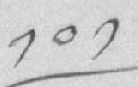༡༠༡
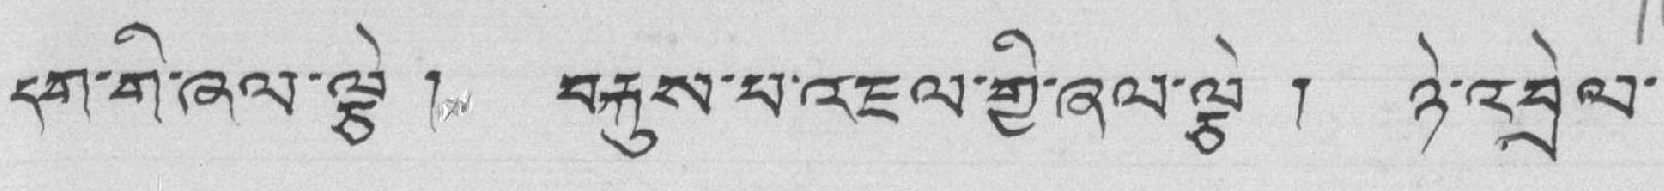དག་གི་ཞལ་ལྕེ ། བརྐུས་པ་འཇལ་གྱི་ཞལ་ལྕེ ། ཉེ་འབྲེལ་
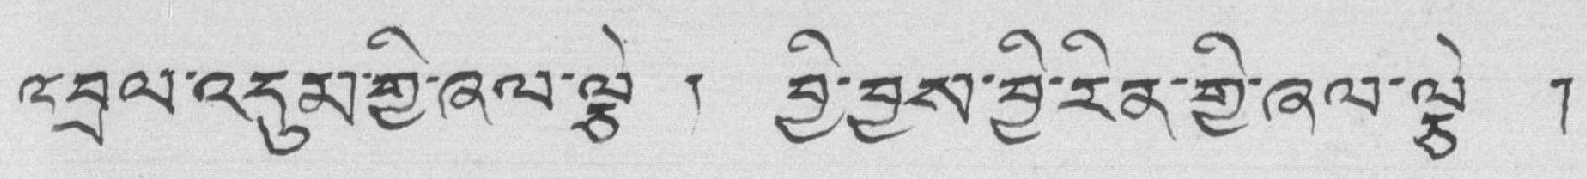འབྲལ་འདུམ་གྱི་ཞལ་ལྕེ ། བྱི་བྱས་བྱི་རིན་གྱི་ཞལ་ལྕེ །
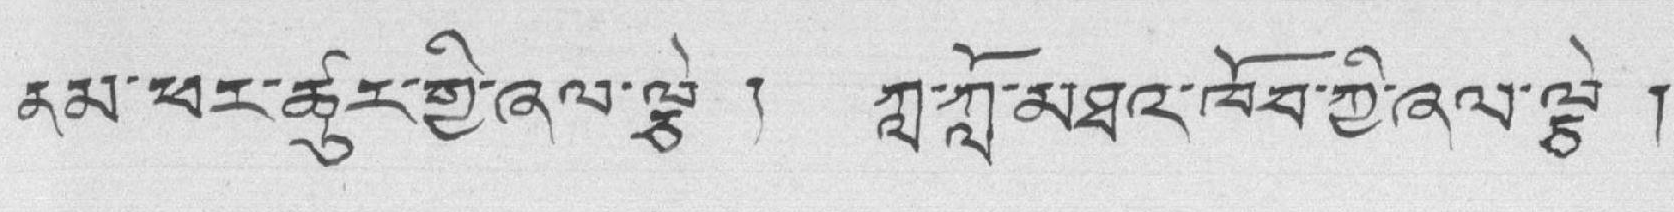ནམ་ཕར་ཚུར་གྱི་ཞལ་ལྕེ ། ཀླ་ཀློ་མཐའ་ཁོབ་ཀྱི་ཞལ་ལྕེ །
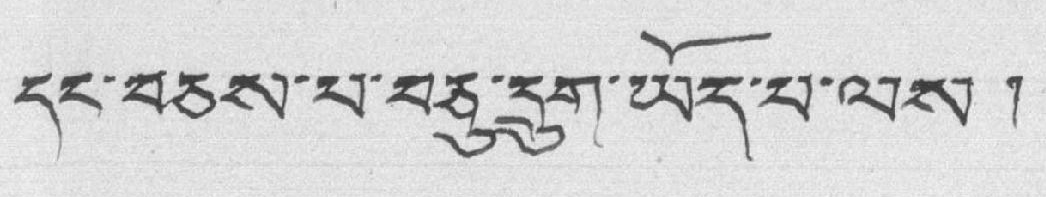དང་བཅས་པ་བཅུ་དྲུག་ཡོད་པ་ལས །
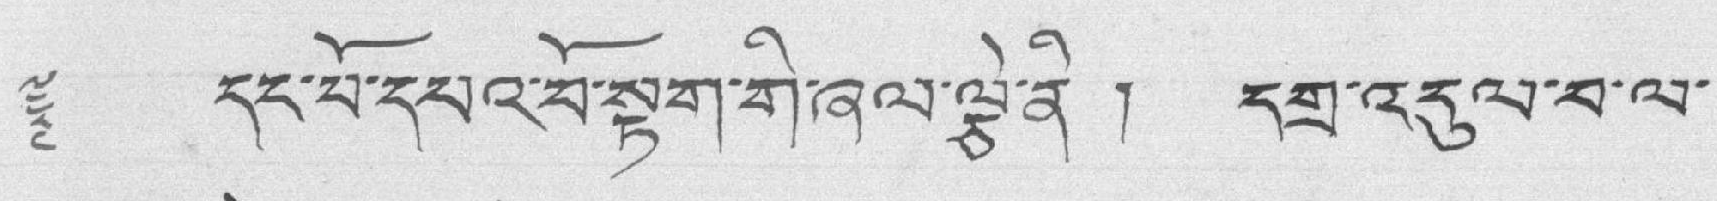༈ དང་བོ་དཔའ་བོ་སྟག་གི་ཞལ་ལྕེ་ནི ། དགྲ་འདུལ་བ་ལ་
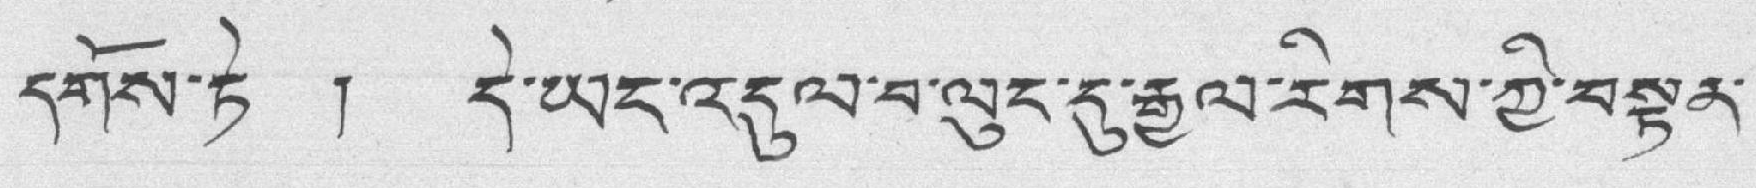དགོས་ཏེ ། དེ་ཡང་འདུལ་བ་ལུང་དུ་རྒྱལ་རིགས་ཀྱི་བསྟན་
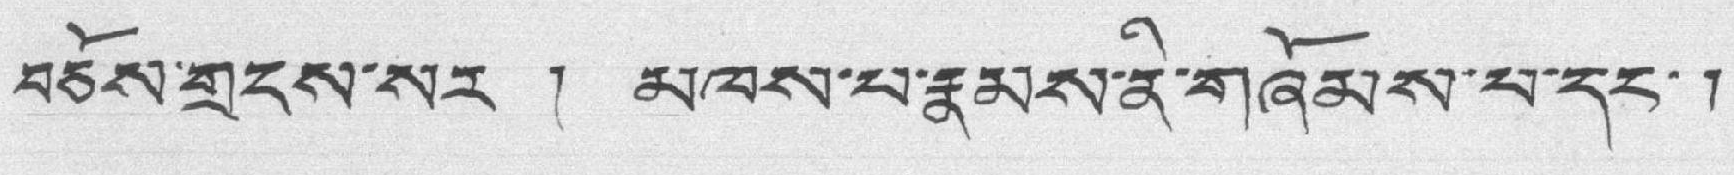བཅོས་གྲངས་སར ། མཁས་པ་རྣམས་ནི་གཞོམས་པ་དང་།
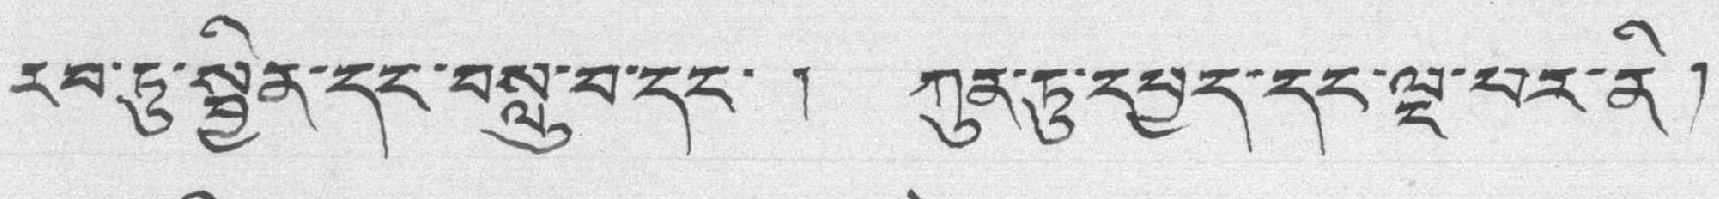རབ་ཏུ་སྦྱིན་དང་བསླུ་བ་དང་ ། ཀུན་ཏུ་དཔྱད་དང་ལྔ་པར་ནི།
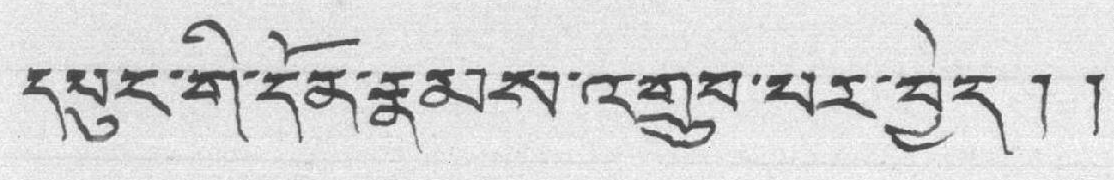དཔུང་གི་དོན་རྣམས་འགྲུབ་པར་བྱེད།།
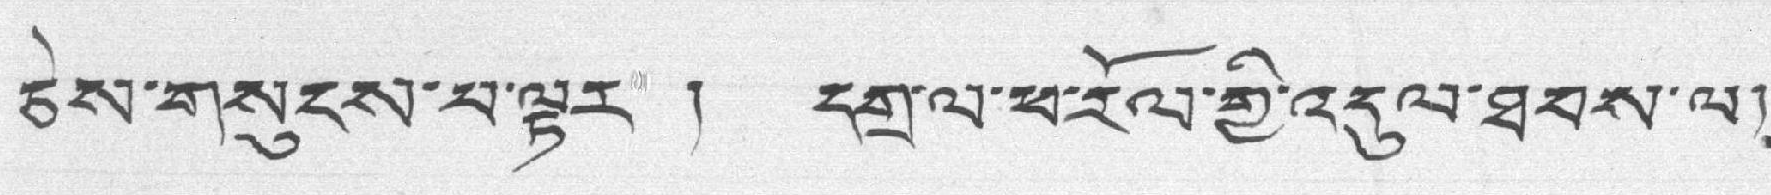ཅེས་གསུངས་པ་ལྟར ། དགྲ་ལ་ཕ་རོལ་གྱི་འདུལ་ཐབས་ལ།
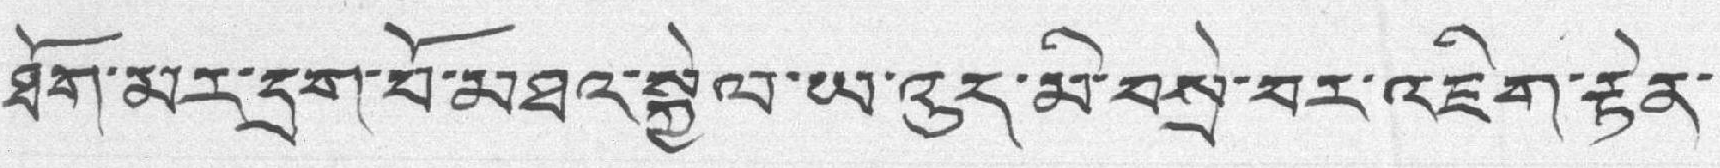ཐོག་མར་དྲག་པོ་མཐའ་སྐྱེལ་ཡ་འུད་མི་བསྲེ་བར་འཇིག་རྟེན་
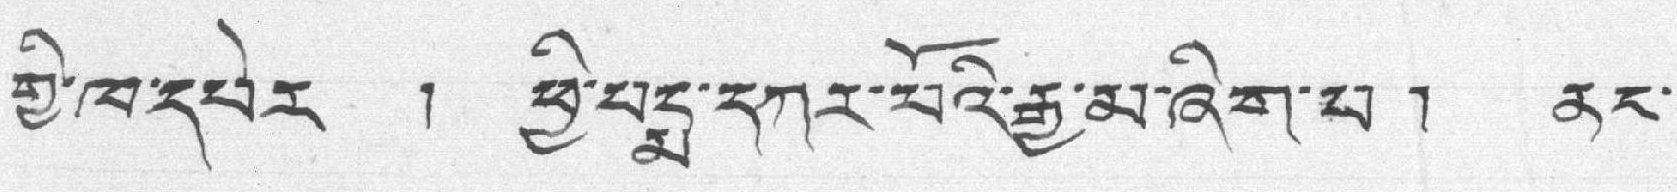གྱི་ཁ་དཔེར ། ཕྱི་པདྨ་དཀར་པོའི་རྒྱ་མ་ཞིག་པ། ནང་
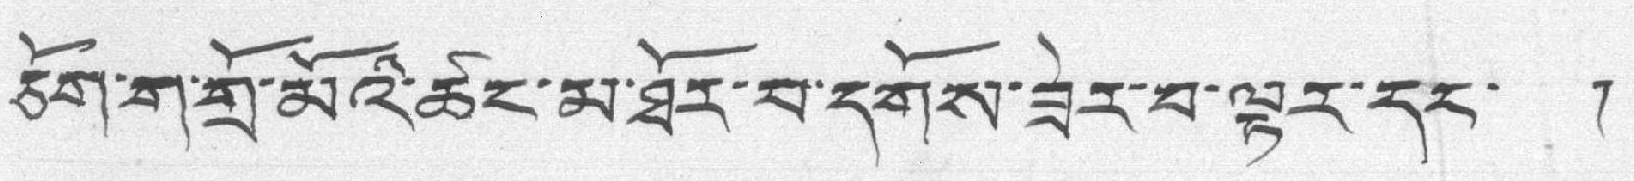ཅོག་ག་གྲོ་མོའི་ཚང་མ་ཐོར་བ་དགོས་ཟེར་བ་ལྟར་དང་ །
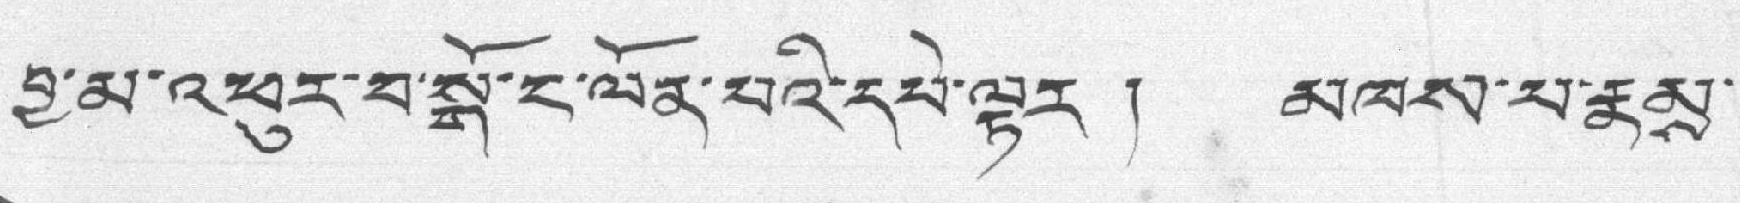བྱ་མ་འཕུར་བ་སྒོ་ང་ལོན་པའི་དཔེ་ལྟར། མཁས་པ་རྣམས་
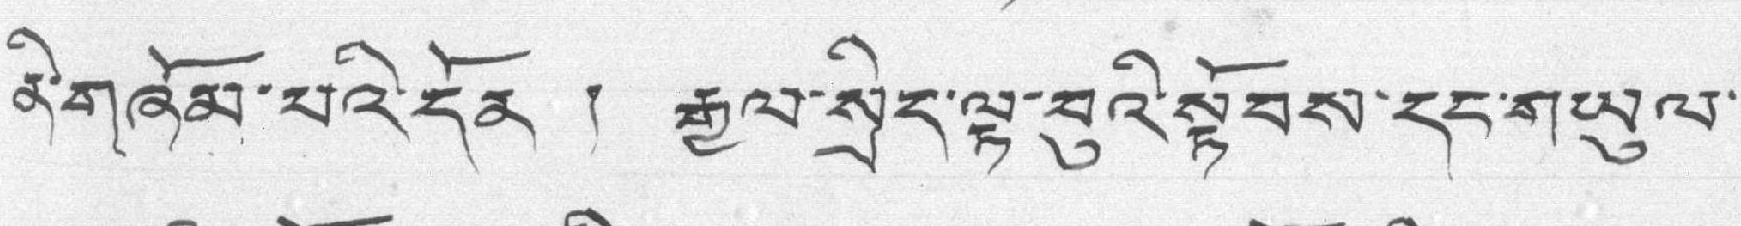ནི་གཞོམ་པའི་དོན ། རྒྱལ་སྲིད་ལྟ་བུའི་སྟོབས་དང་གཡུལ་
